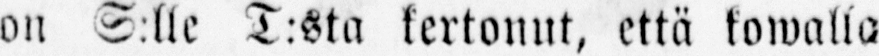on S:lle T:sta kertonut, että kowalla
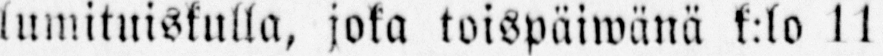lumituiskulla, joka toispäiwänä k:lo 11
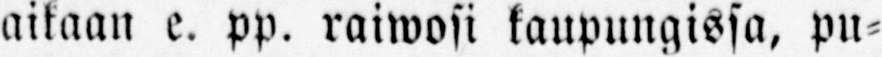aikaan e. pp. raiwosi kaupungissa, pu-
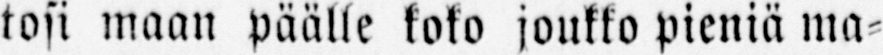tosi maan päälle koko joukko pieniä ma-
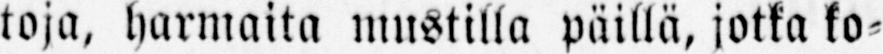toja, harmaita mustilla päillä, jotka ko-
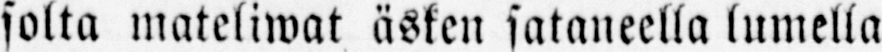solta mateliwat äsken sataneella lumella
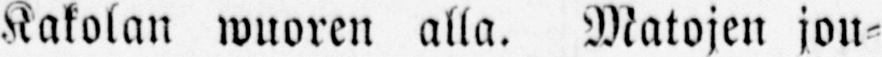Kakolan wuoren alla. Matojen jou-
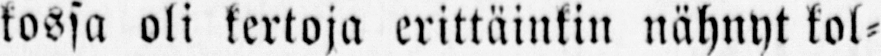kossa oli kertoja erittäinkin nähnyt kol-
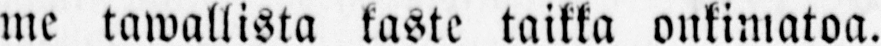me tawallista kaste taikka onkimatoa.
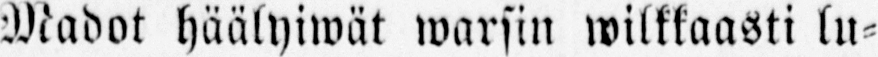Madot häälyiwät warsin wilkkaasti lu-
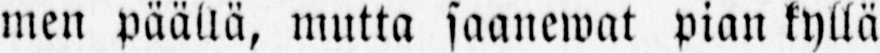men päällä, mutta saanewat pian kyllä
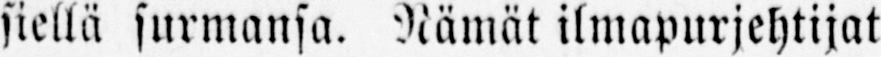siellä surmansa. Nämät ilmapurjehtijat
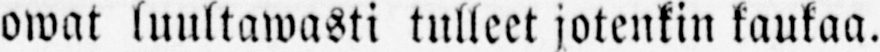owat luultawasti tulleet jotenkin kaukaa.
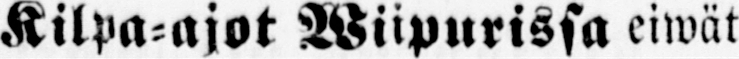— Kilpa-ajot Wiipurissa eiwät
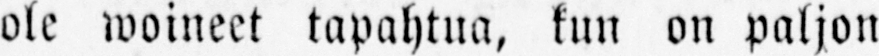ole woineet tapahtua, kun on paljon
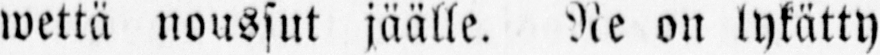wettä noussut jäälle. Ne on lykätty
